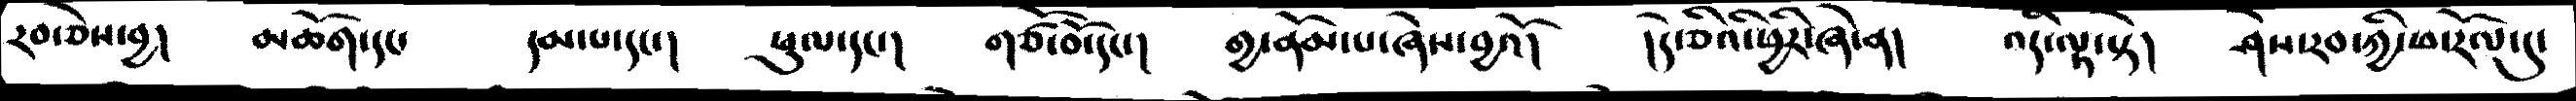རབ་ཅེས་བྱ།  མཆོག་དང་     དམ་པ་དང་།    ཕུལ་དང་།    གཙོ་བོ་དེ་།     གྱ་ནོམ་པ་ཞེས་བྱའོ།     །དེ་ཅིའི་ཕྱིར་ཞེ་ན།   འདི་ལྟ་སྟེ།  ཤེས་རབ་ཀྱི་ཕ་རོལ་དུ་
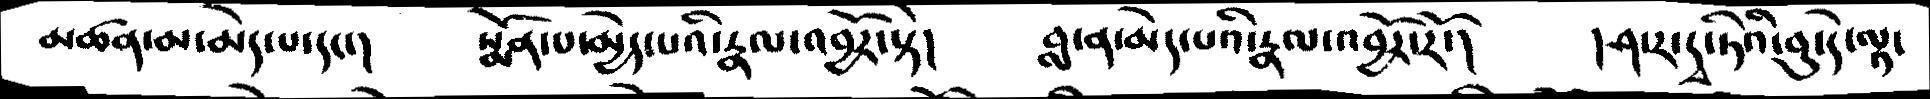མཚན་མ་མེད་པ་དང་།  སྨོན་པ་མེད་པའི་རྣལ་འབྱོར་སྟེ།    བླ་ན་མེད་པའི་རྣལ་འབྱོར་རོ་།   །ཤ་ར་ཏྭིའི་བུ་དེ་ལྟ་
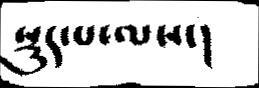སྡུད་པ་ལས་།
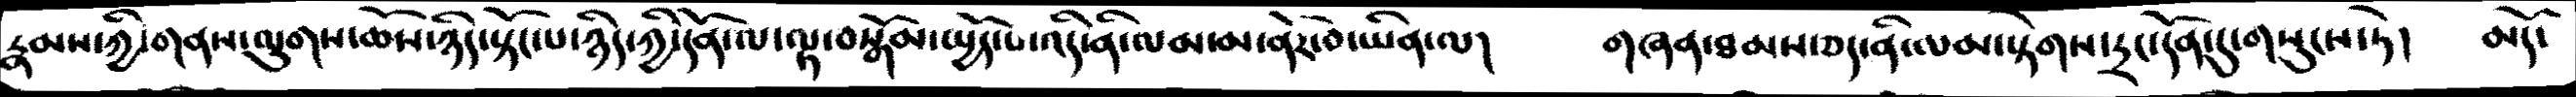རྣམས་ཀྱི་གནས་ལུགས་ཆོས་ཉིད་ཀྱི་དོན་ལ་ལྟ་བསྒོམ་སྤྱོད་པ་འདི་ནི་ལམ་མ་ནོར་ཅེ་ཡིན་ལ། གཞན་ཐམས་ཅད་ནི་ལམ་སྟེགས་དྲང་དོན་དུ་གསུངས་ཏེ།   མདོ་
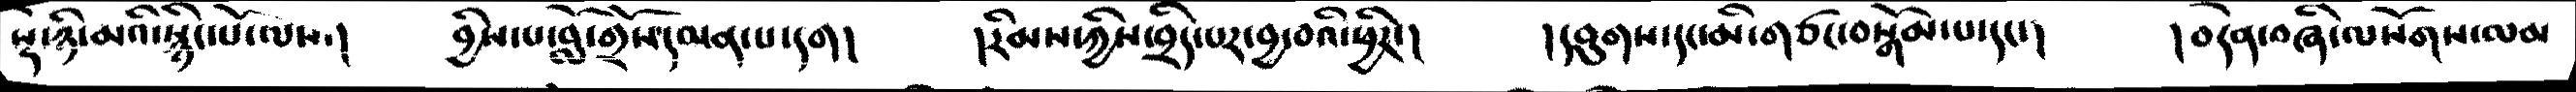སྡེ་ཉི་མའི་སྙིང་པོ་ལས་།  བྱིས་པ་བློ་གྲོས་དམན་པ་དག།  །རིམས་ཀྱིས་བྲིད་པར་བྱ་བའི་ཕྱིར་།  །དབུགས་དང་མ་གཙང་བསྒོམ་པ་དང་།   །བདེན་བཞི་ལསོགས་ལམ
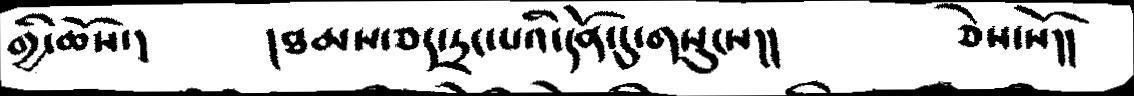གྱི་ཆོས་།     །ཐམས་ཅད་དྲང་པའི་དོན་དུ་གསུངས།།   ཅེས་སོ།།
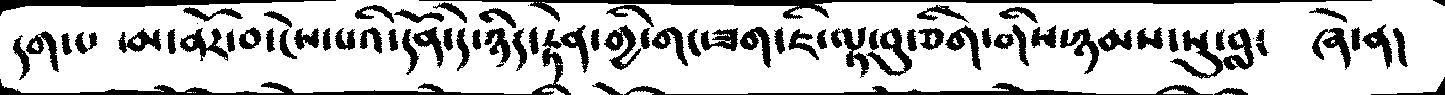དག་པ  ་མ་ནོར་བ་ངེས་པའི་དོན་དེ་ཉིད་རྟེན་གྱི་གང་ཟག་ཇི་ལྟ་བུ་ཅིག་གིས་ཉམས་སུ་བླང  ཞེ་ན།
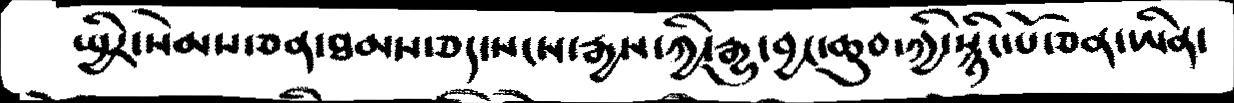སྤྱིར་སེམས་ཅན་ཐམས་ཅད་སངས་རྒྱས་ཀྱི་རྒྱུ་བྱང་ཆུབ་ཀྱི་སྙིང་པོ་ཅན་ཡིན་
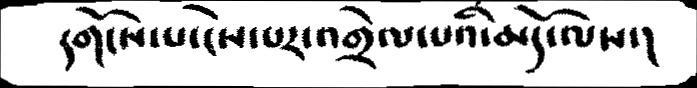དགོངས་པ་ངེས་པར་འགྲེལ་པའི་མདོ་ལས་།
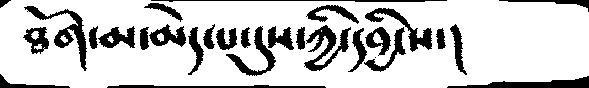ཐོག་མ་མེད་པ་དུས་ཀྱི་དབྱིངས་།
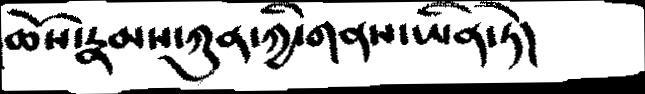ཆོས་རྣམས་ཀུན་ཀྱི་གནས་ཡིན་ཏེ།
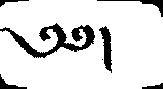༄༅།
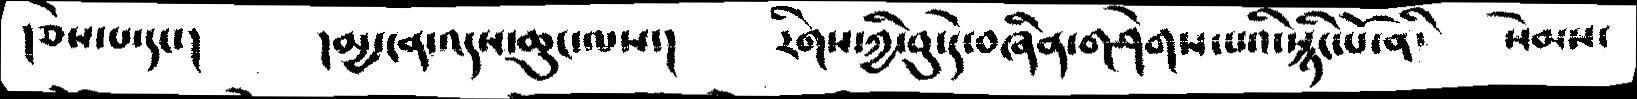།ཅེས་པ་དང་།      །མྱ་ངན་འདས་ཆུང་ལས་།          རིགས་ཀྱི་བུ་དེ་བཞིན་གཤེགས་པའི་སྙིང་པོ་ནི་    སེམས་
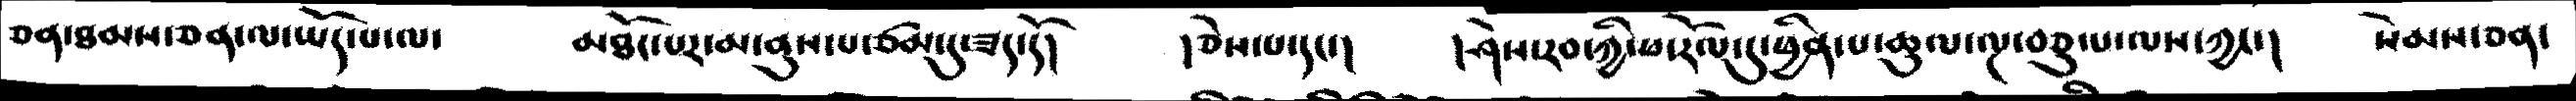ཅན་ཐམས་ཅན་ལ་ཡོད་པ་ལ་    མཐོང་པར་མ་ནུས་པ་ཙམ་དུ་ཟད་དོ།   །ཅེས་པ་དང་།   །ཤེས་རབ་ཀྱི་ཕ་རོལ་དུ་ཕྱིན་པ་ཆུལ་ལྔ་བཅུ་པ་ལས་ཀྱང་།   སེམས་ཅན་
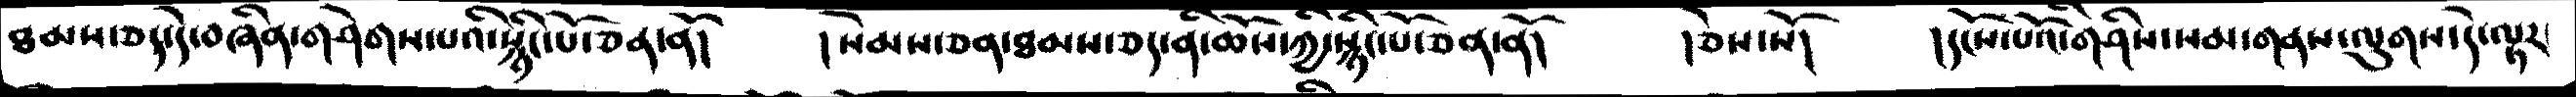ཐམས་ཅད་དེ་བཞིན་གཤེགས་པའི་སྙིང་པོ་ཅན་ནོ།   །སེམས་ཅན་ཐམས་ཅད་ནི་ཆོས་ཀྱི་སྙིང་པོ་ཅན་ནོ།  །ཅེས་སོ།  །དངོས་པོའི་གཤིས་སམ་གནས་ལུགས་དེ་ལྟར
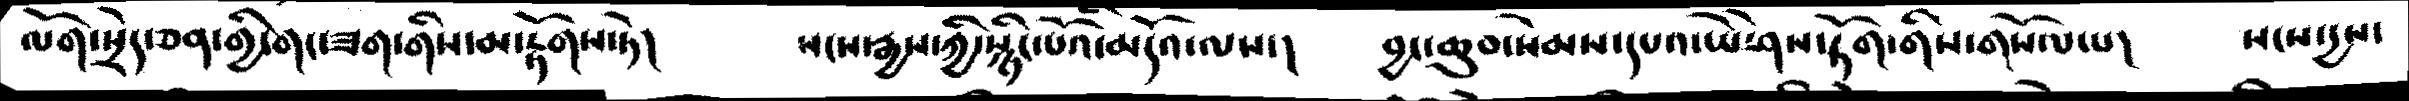ལོག་སྲེད་ཅན་གྱི་གང་ཟག་མ་རྟོགས་ཏེ།    སངས་རྒྱས་ཀྱི་སྙིང་པོའི་མདོའ་ལས་།  བྱང་ཆུབ་སེམས་དཔའ་ཡེ་ཤེས་ཏོག་གིས་གསོལ་པ།  སངས་དྱས་
